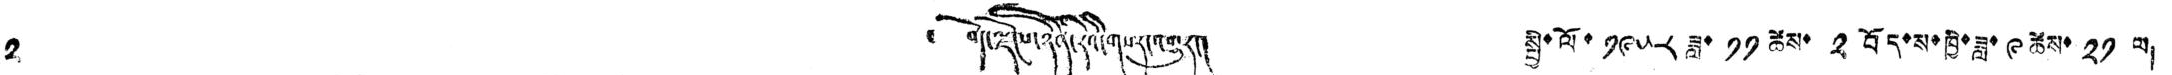༢ ༄ བོད་ལྗོངས་ཉིན་རེའི་གསར་འགྱུར། སྤྱི་ལོ་ ༡༩༥༨ ཟླ་ ༡༡ ཚེས་ ༢ བོད་ས་ཁྱི་ཟླ་ ༩ ཚེས་ ༢༡ ལ།
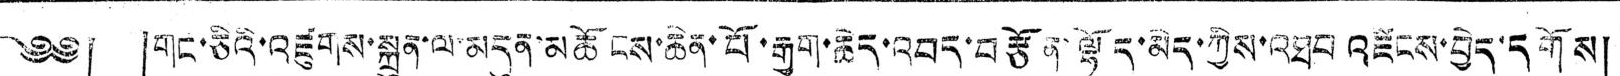༄༅། །གང་ཅིའི་འཛུགས་སྐྲུན་ལ་མདུན་མཆོངས་ཆེན་པོ་རྒྱག་ཆེད་འབད་བརྩོན་ལྷོད་མེད་ཀྱིས་འཐབ འཛིངས་བྱེད་དགོས།
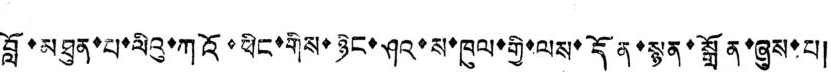བློ་མཐུན་པ་ལིའུ་ཀའོ་ཕིང་གིས་ཉིང་ཤའ་ས་ཁུལ་གྱི་ལས་དོན་སྙན་སྒྲོན་ཞུས་པ།
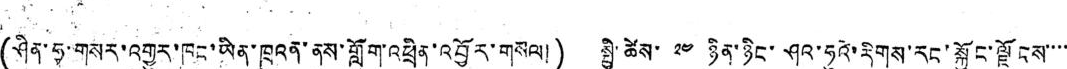(ཤིན་ཧྭ་གསར་འགྱུར་ཁང་ཡིན་ཁྲུའན་ནས་གློག་འཕྲིན་འབྱོར་གསལ།) སྤྱི་ཚེས་ ༢༤ ཉིན་ཉིང་ཤའ་ཧུའེ་རིགས་རང་སྐྱོང་ལྗོངས་་་་
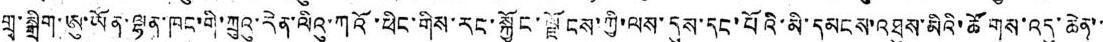གྲྭ་སྒྲིག་ཨུ་ཡོན་ལྷན་ཁང་གི་ཀྲུའུ་རེན་ལིའུ་ཀའོ་ཕིང་གིས་རང་སྐྱོང་ལྗོངས་ཀྱི་ལས་དུས་དང་པོའི་མི་དམངས་འཐུས་མིའི་ཚོགས་འདུ་ཆེན་་
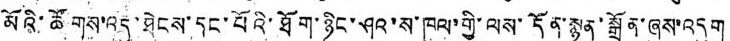མོའི་ཚོགས་འདུ་ཐེངས་དང་པོའི་ཐོག་ཉིང་ཤའ་ས་ཁུལ་གྱི་ལས་དོན་སྙན་སྒྲོན་ཞུས་འདུག
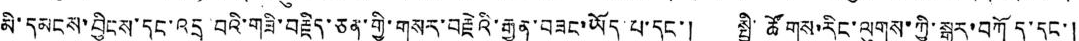མི་དམངས་བྱིངས་དང་འདྲ་བའི་གཟི་བརྗིད་ཅན་གྱི་གསར་བརྗེའི་རྒྱུན་བཟང་ཡོད་པ་དང་། སྤྱི་ཚོགས་རིང་ལུགས་ཀྱི་སྒྱུར་བཀོད་དང་།
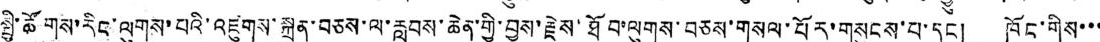སྤྱི་ཚོགས་རིང་ལུགས་པའི་འཛུགས་སྐྲུན་བཅས་ལ་རླབས་ཆེན་གྱི་བྱས་རྗེས་ཐོབ་ལུགས་བཅས་གསལ་པོར་གསུངས་པ་དང། ཁོང་གིས་་་
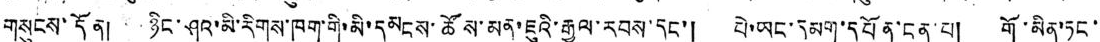གསུངས་དོན། ཉིང་ཤའ་མི་རིགས་ཁག་གི་མི་དམངས་ཚོས་མན་ཇུའི་རྒྱལ་རབས་དང་། པེ་ཡང་དམག་དཔོན་ངན་པ། གོ་མིན་ཏང་་
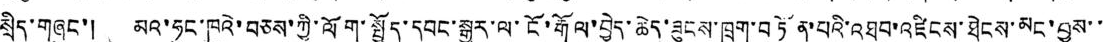སྲིད་གཞུང་། མའ་ཧུང་ཁུའེ་བཅས་ཀྱི་ལོག་སྤྱོད་དབང་སྒྱུར་ལ་ངོ་རྒོལ་བྱེད་ཆེད་ཞུངས་ཁྲག་བཏོན་པའི་འཐབ་འཛིངས་ཐེངས་མང་བྱས་་
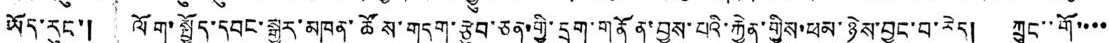ཡོད་རུང་། ལོག་སྤྱོད་དབང་སྒྱུར་མཁན་ཚོས་གདུག་རྩུབ་ཅན་གྱི་དྲག་གནོན་བྱས་པའི་རྐྱེན་གྱིས་ཕམ་ཉེས་བྱུང་བ་རེད། ཀྲུང་་གོ་་་་
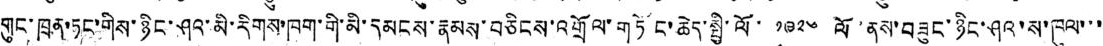གུང་ཁྲན་ཏང་གིས་ཉིང་ཤའ་མི་རིགས་ཁག་གི་མི་དམངས་རྣམས་བཅིངས་འགྲོལ་གཏོང་ཆེད་སྤྱི་ལོ་ ༡༩༢༦ ལོ་ནས་བཟུང་ཉིང་ཤའ་ས་ཁུལ་་་
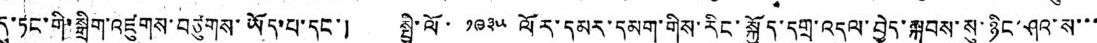དུ་ཏང་གི་སྒྲིག་འཛུགས་བཙུགས་ཡོད་པ་དང་། སྤྱི་ལོ་ ༡༩༣༥ ལོར་དམར་དམག་གིས་རིང་སྐྱོད་དགྲ་འདུལ་བྱེད་སྐབས་སུ་ཉིང་ཤའ་ས་་་
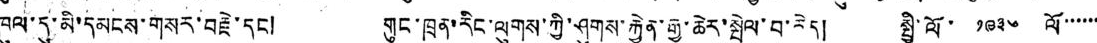ཁུལ་དུ་མི་དམངས་གསར་བརྗེ་དང། གུང་ཁྲན་རིང་ལུགས་ཀྱི་ཤུགས་རྐྱེན་རྒྱ་ཆེར་སྤེལ་བ་རེད། སྤྱི་ལོ་ ༡༩༣༦ ལོ་་་་་་
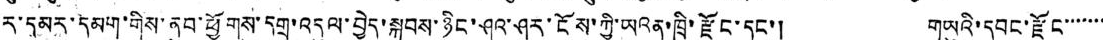ར་དམར་དམག་གིས་ནུབ་ཕྱགོས་དགྲ་འདུལ་བྱེད་སྐབས་ཉིང་ཤའ་ཤར་ངོས་ཀྱི་ཡའན་ཁྲི་རྫོང་དང་། གཡུའི་དབང་རྫོང་་་་་་་
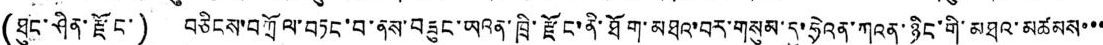(ཐུང་ཤིན་རྫོང་) བཅིངས་བཀྲོལ་བཏང་བ་ནས་བཟུང་ཡའན་ཁྲི་རྫོང་ནི་ཐོག་མཐའ་བར་གསུམ་དུ་ཧྲེའན་ཀའན་ཉིང་གི་མཐའ་མཚམས་་་
